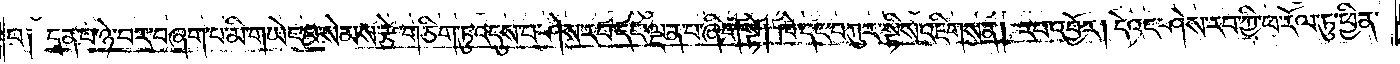པ༑ དྲན་པ་ཉེ་བར་བཞག་པ་མི་གཡེང་བ་སེམས་རྩ་གཅིག་ཏུ་འདུས་པ་ཤེས་རབ་དང་ལྡན་པ་ཞིག་སྟེ། ཁེ་དང་བཀུར་སྟིས་འཇིགས་ན། རབ་འབྱོར། དེའང་ཤེས་རབ་ཀྱི་ཕ་རོལ་ཏུ་ཕྱིན་
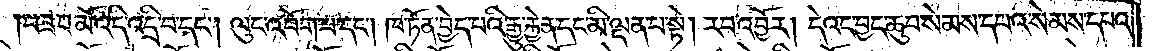པ་ཟབ་མོ་འདི་འདྲི་བ་དང༌། ལུང་འབོག་པ་དང༌། ཁ་ཏོན་བྱེད་པའི་རྒྱུ་རྐྱེན་དང་མི་ལྡན་པ་སྟེ། རབ་འབྱོར། དེའང་བྱང་ཆུབ་སེམས་དཔའ་སེམས་དཔའ་
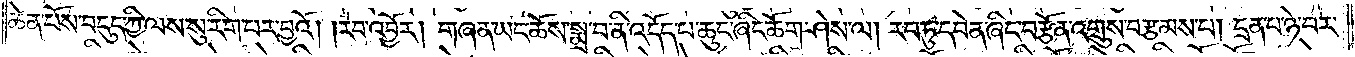ཆེན་པོས་བདུད་ཀྱི་ལས་སུ་རིག་པར་བྱའོ། །རབ་འབྱོར། གཞན་ཡང་ཆོས་སྨྲ་བ་ནི་འདོད་པ་ཆུང་ཞིང་ཆོག་ཤེས་ལ། རབ་ཏུ་དབེན་ཞིང་བརྩོན་འགྲུས་བརྩམས་པ། དྲན་པ་ཉེ་བར་
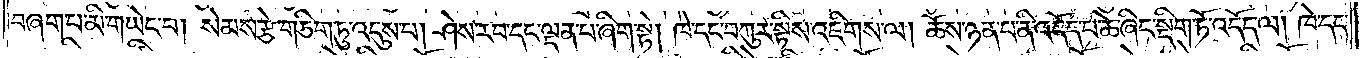བཞག་པ་མི་གཡེང་བ། སེམས་རྩེ་གཅིག་ཏུ་འདུས་པ། ཤེས་རབ་དང་ལྡན་པ་ཞིག་སྟེ། ཁེ་དང་བཀུར་སྟིས་འཇིགས་ལ། ཆོས་ཉན་པ་ནི་འདོད་པ་ཆེ་ཞིང་སྡིག་ཏོ་འདོད་ལ། ཁེ་དང་
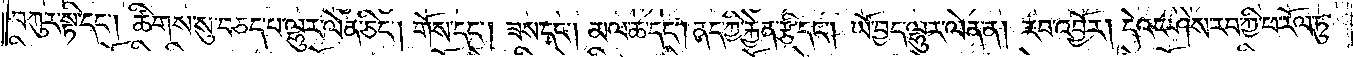བཀུར་སྟི་དང༌། ཚིགས་སུ་བཅད་པ་ལྷུར་ལེན་ཅིང༌། གོས་དང༌། ཟས་དང༌། མལ་ཆ་དང༌། ནད་ཀྱི་རྐྱེན་རྩི་དང༌། ཡོ་བྱད་ལྷུར་ལེན་ན། རབ་འབྱོར། དེའང་ཤེས་རབ་ཀྱི་ཕ་རོལ་ཏུ་
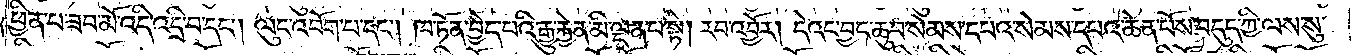ཕྱིན་པ་ཟབ་མོ་འདི་འདྲི་བ་དང༌། ལུང་འབོག་པ་དང༌། ཁ་ཏོན་བྱེད་པའི་རྒྱུ་རྐྱེན་མི་ལྡན་པ་སྟེ། རབ་འབྱོར། དེའང་བྱང་ཆུབ་སེམས་དཔའ་སེམས་དཔའ་ཆེན་པོས་བདུད་ཀྱི་ལས་སུ་
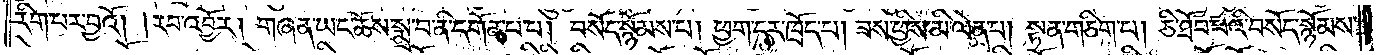རིག་པར་བྱའོ། །རབ་འབྱོར། གཞན་ཡང་ཆོས་སྨྲ་བ་ནི་དགོན་པ་པ། བསོད་སྙོམས་པ། ཕྱག་དར་ཁྲོད་པ། ཟས་ཕྱིས་མི་ལེན་པ། སྟན་གཅིག་པ། ཅི་ཐོབ་པའི་བསོད་སྙོམས་
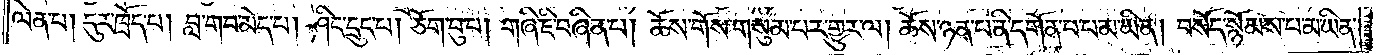ལེན་པ། དུར་ཁྲོད་པ། བླ་གབ་མེད་པ། ཤིང་དྲུད་པ། ཅོག་བུ་པ། གཞི་ཇི་བཞིན་པ། ཆོས་གོས་གསུམ་པར་གྱུར་ལ། ཆོས་ཉན་པ་ནི་དཀོན་པ་མ་ཡིན། བསོད་སྙོམས་པ་མ་ཡིན་
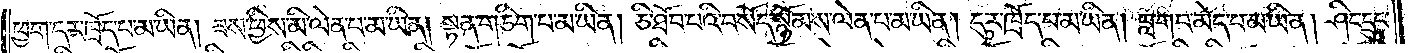ཕྱག་དར་ཁྲོད་པ་མ་ཡིན། ཟས་ཕྱིས་མི་ལེན་པ་མ་ཡིན། སྟན་གཅིག་པ་མ་ཡིན། ཅི་ཐོབ་པའི་བསོད་སྙོམས་ལེན་པ་མ་ཡིན། དུར་ཁྲོད་པ་མ་ཡིན། བླ་གབ་མེད་པ་མ་ཡིན། ཤིང་དྲུང་
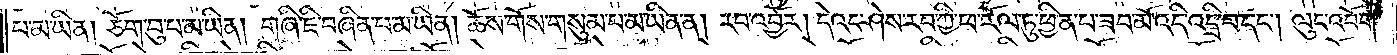པ་མ་ཡིན། ཅོག་བུ་པ་མ་ཡིན། གཞི་ཇི་བཞིན་པ་མ་ཡིན། ཆོས་གོས་གསུམ་པ་མ་ཡིན་ན། རབ་འབྱོར། དེའང་ཤེས་རབ་ཀྱི་ཕ་རོལ་ཏུ་ཕྱིན་པ་ཟབ་མོ་འདི་འདྲི་བ་དང༌། ལུང་འབོག་
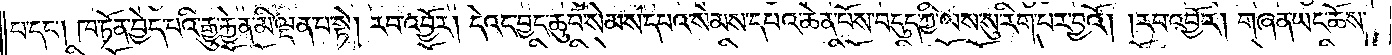པ་དང༌། ཁ་ཏོན་བྱེད་པའི་རྒྱུ་རྐྱེན་མི་ལྡན་པ་སྟེ། རབ་འབྱོར། དེའང་བྱང་ཆུབ་སེམས་དཔའ་སེམས་དཔའ་ཆེན་པོས་བདུད་ཀྱི་ལས་སུ་རིག་པར་བྱའོ། །རབ་འབྱོར། གཞན་ཡང་ཆོས་
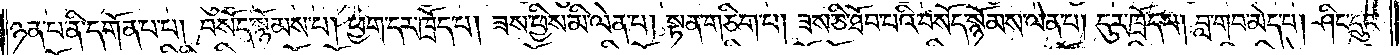ཉན་པ་ནི་དགོན་པ་པ། བསོད་སྙོམས་པ། ཕྱག་དར་ཁྲོད་པ། ཟས་ཕྱིས་མི་ལེན་པ། སྟན་གཅིག་པ། ཟས་ཅི་ཐོབ་པའི་བསོད་སྙོམས་ལེན་པ། དུར་ཁྲོད་པ། བླ་གབ་མེད་པ། ཤིང་དྲུང་
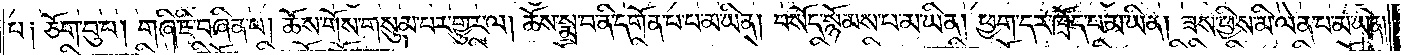པ༑ ཅོག་བུ་པ། གཞི་ཇི་བཞིན་པ། ཆོས་གོས་གསུམ་པར་གྱུར་ལ། ཆོས་སྨྲ་བ་ནི་དགོན་པ་པ་མ་ཡིན། བསོད་སྙོམས་པ་མ་ཡིན། ཕྱག་དར་ཁྲོད་པ་མ་ཡིན། ཟས་ཕྱིས་མི་ལེན་པ་མ་ཡིན།
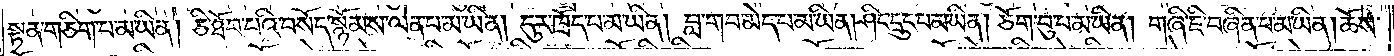སྟན་གཅིག་པ་མ་ཡིན། ཅི་ཐོབ་པའི་བསོད་སྙོམས་ལེན་པ་མ་ཡིན། དུར་ཁྲོད་པ་མ་ཡིན། བླ་གབ་མེད་པ་མ་ཡིན། ཤིང་དྲུང་པ་མ་ཡིན། ཅོག་བུ་པ་མ་ཡིན། གཞི་ཇི་བཞིན་པ་མ་ཡིན། ཆོས་
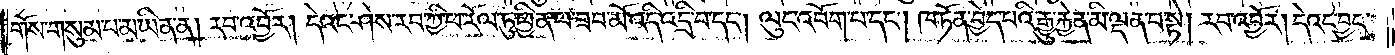གོས་གསུམ་པ་མ་ཡིན་ན། རབ་འབྱོར། དེའང་ཤེས་རབ་ཀྱི་ཕ་རོལ་ཏུ་ཕྱིན་པ་ཟབ་མོ་འདི་འདྲི་བ་དང༌། ལུང་འབོག་པ་དང༌། ཁ་ཏོན་བྱེད་པའི་རྒྱུ་རྐྱེན་མི་ལྡན་པ་སྟེ། རབ་འབྱོར། དེའང་བྱང་
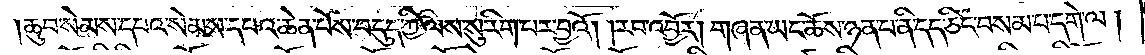ཆུབ་སེམས་དཔའ་སེམས་དཔའ་ཆེན་པོས་བདུད་ཀྱི་ལས་སུ་རིག་པར་བྱའོ། །རབ་འབྱོར། གཞན་ཡང་ཆོས་ཉན་པ་ནི་དད་ཅིང་བསམ་པ་དགེ་ལ།
